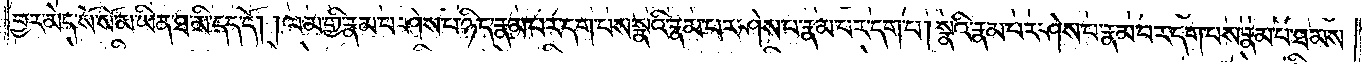བྱར་མེད་སོ་སོ་མ་ཡིན་ཐ་མི་དད་དོ། །ལམ་གྱི་རྣམ་པ་ཤེས་པ་ཉིད་རྣམ་པར་དག་པས་སྣའི་རྣམ་པར་ཤེས་པ་རྣམ་པར་དག་པ། སྣའི་རྣམ་པར་ཤེས་པ་རྣམ་པར་དག་པས་རྣམ་པ་ཐམས་
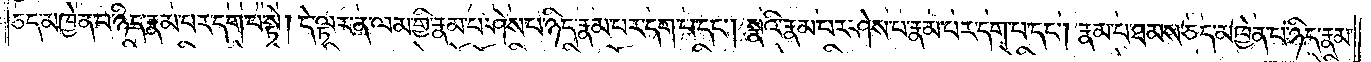ཅད་མཁྱེན་པ་ཉིད་རྣམ་པར་དག་པ་སྟེ། དེ་ལྟར་ན་ལམ་གྱི་རྣམ་པ་ཤེས་པ་ཉིད་རྣམ་པར་དག་པ་དང༌། སྣའི་རྣམ་པར་ཤེས་པ་རྣམ་པར་དག་པ་དང༌། རྣམ་པ་ཐམས་ཅད་མཁྱེན་པ་ཉིད་རྣམ་
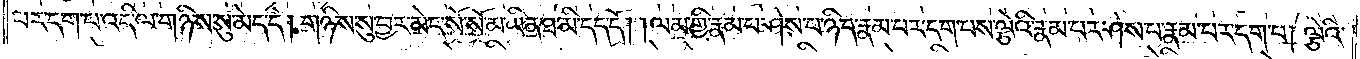པར་དག་པ་འདི་ལ་གཉིས་སུ་མེད་དེ། གཉིས་སུ་བྱར་མེད་སོ་སོ་མ་ཡིན་ཐ་མི་དད་དོ། །ལམ་གྱི་རྣམ་པ་ཤེས་པ་ཉིད་རྣམ་པར་དག་པས་ལྕེའི་རྣམ་པར་ཤེས་པ་རྣམ་པར་དག་པ། ལྕེའི་
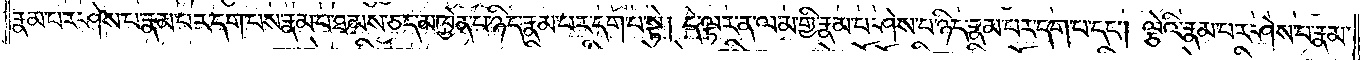རྣམ་པར་ཤེས་པ་རྣམ་པར་དག་པས་རྣམ་པ་ཐམས་ཅད་མཁྱེན་པ་ཉིད་རྣམ་པར་དག་པ་སྟེ། དེ་ལྟར་ན་ལམ་གྱི་རྣམ་པ་ཤེས་པ་ཉིད་རྣམ་པར་དག་པ་དང༌། ལྕེའི་རྣམ་པར་ཤེས་པ་རྣམ་
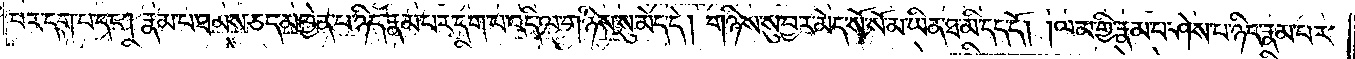པར་དག་པ་དང༌། རྣམ་པ་ཐམས་ཅད་མཁྱེན་པ་ཉིད་རྣམ་པར་དག་པ་འདི་ལ་གཉིས་སུ་མེད་དེ། གཉིས་སུ་བྱར་མེད་སོ་སོ་མ་ཡིན་ཐ་མི་དད་དོ། །ལམ་གྱི་རྣམ་པ་ཤེས་པ་ཉིད་རྣམ་པར་
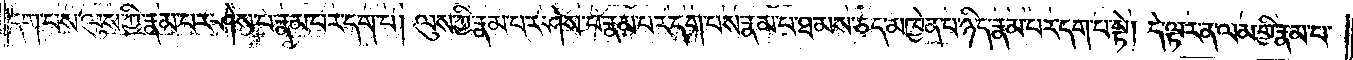དག་པས་ལུས་ཀྱི་རྣམ་པར་ཤེས་པ་རྣམ་པར་དག་པ། ལུས་ཀྱི་རྣམ་པར་ཤེས་པ་རྣམ་པར་དག་པས་རྣམ་པ་ཐམས་ཅད་མཁྱེན་པ་ཉིད་རྣམ་པར་དག་པ་སྟེ། དེ་ལྟར་ན་ལམ་གྱི་རྣམ་པ་
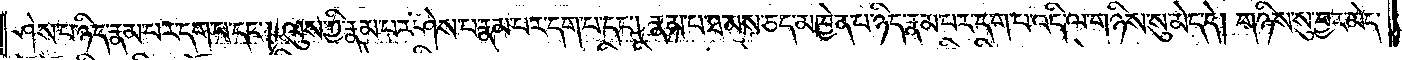ཤེས་པ་ཉིད་རྣམ་པར་དག་པ་དང༌། ལུས་ཀྱི་རྣམ་པར་ཤེས་པ་རྣམ་པར་དག་པ་དང༌། རྣམ་པ་ཐམས་ཅད་མཁྱེན་པ་ཉིད་རྣམ་པར་དག་པ་འདི་ལ་གཉིས་སུ་མེད་དེ། གཉིས་སུ་བྱར་མེད་
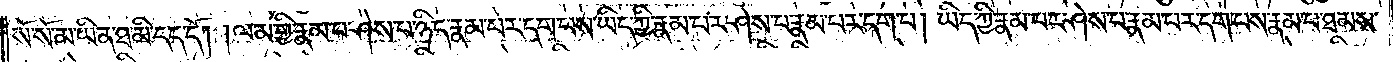སོ་སོ་མ་ཡིན་ཐ་མི་དད་དོ། །ལམ་གྱི་རྣམ་པ་ཤེས་པ་ཉིད་རྣམ་པར་དག་པས་ཡིད་ཀྱི་རྣམ་པར་ཤེས་པ་རྣམ་པར་དག་པ། ཡིད་ཀྱི་རྣམ་པར་ཤེས་པ་རྣམ་པར་དག་པས་རྣམ་པ་ཐམས་
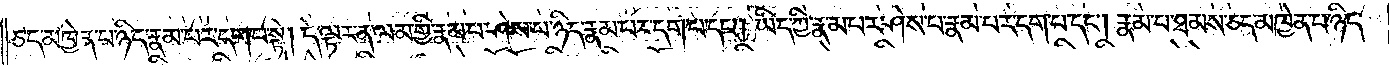ཅད་མཁྱེན་པ་ཉིད་རྣམ་པར་དག་པ་སྟེ། དེ་ལྟར་ན་ལམ་གྱི་རྣམ་པ་ཤེས་པ་ཉིད་རྣམ་པར་དག་པ་དང༌། ཡིད་ཀྱི་རྣམ་པར་ཤེས་པ་རྣམ་པར་དག་པ་དང༌། རྣམ་པ་ཐམས་ཅད་མཁྱེན་པ་ཉིད་
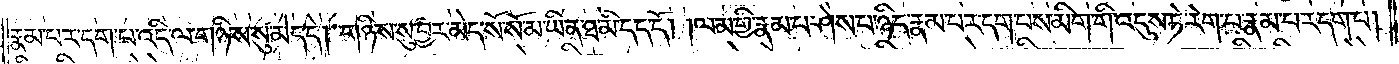རྣམ་པར་དག་པ་འདི་ལ་གཉིས་སུ་མེད་དེ། གཉིས་སུ་བྱར་མེད་སོ་སོ་མ་ཡིན་ཐ་མི་དད་དོ། །ལམ་གྱི་རྣམ་པ་ཤེས་པ་ཉིད་རྣམ་པར་དག་པས་མིག་གི་འདུས་ཏེ་རེག་པ་རྣམ་པར་དག་པ།
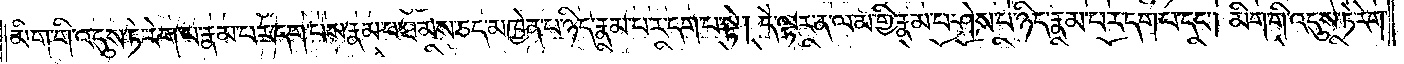མིག་གི་འདུས་ཏེ་རེག་པ་རྣམ་པར་དག་པས་རྣམ་པ་ཐམས་ཅད་མཁྱེན་པ་ཉིད་རྣམ་པར་དག་པ་སྟེ། དེ་ལྟར་ན་ལམ་གྱི་རྣམ་པ་ཤེས་པ་ཉིད་རྣམ་པར་དག་པ་དང༌། མིག་གི་འདུས་ཏེ་རེག་
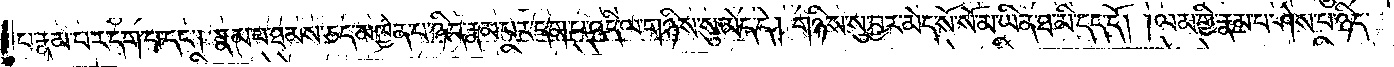པ་རྣམ་པར་དག་པ་དང༌། རྣམ་པ་ཐམས་ཅད་མཁྱེན་པ་ཉིད་རྣམ་པར་དག་པ་འདི་ལ་གཉིས་སུ་མེད་དེ། གཉིས་སུ་བྱར་མེད་སོ་སོ་མ་ཡིན་ཐ་མི་དད་དོ། །ལམ་གྱི་རྣམ་པ་ཤེས་པ་ཉིད་
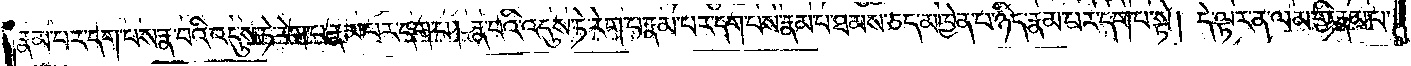རྣམ་པར་དག་པས་རྣ་བའི་འདུས་ཏེ་རེག་པ་རྣམ་པར་དག་པ། རྣ་བའི་འདུས་ཏེ་རེག་པ་རྣམ་པར་དག་པས་རྣམ་པ་ཐམས་ཅད་མཁྱེན་པ་ཉིད་རྣམ་པར་དག་པ་སྟེ། དེ་ལྟར་ན་ལམ་གྱི་རྣམ་པ་
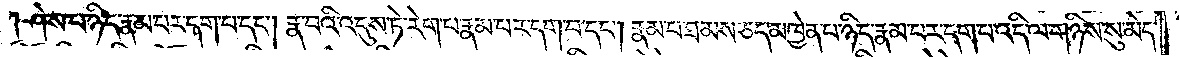ཤེས་པ་ཉིད་རྣམ་པར་དག་པ་དང༌། རྣ་བའི་འདུས་ཏེ་རེག་པ་རྣམ་པར་དག་པ་དང༌། རྣམ་པ་ཐམས་ཅད་མཁྱེན་པ་ཉིད་རྣམ་པར་དག་པ་འདི་ལ་གཉིས་སུ་མེད་
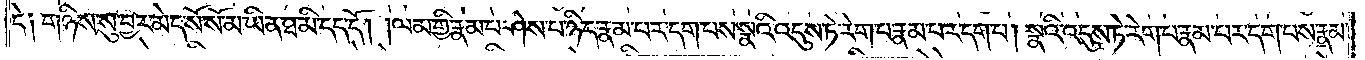དེ༑ གཉིས་སུ་བྱར་མེད་སོ་སོ་མ་ཡིན་ཐ་མི་དད་དོ། །ལམ་གྱི་རྣམ་པ་ཤེས་པ་ཉིད་རྣམ་པར་དག་པས་སྣའི་འདུས་ཏེ་རེག་པ་རྣམ་པར་དག་པ། སྣའི་འདུས་ཏེ་རེག་པ་རྣམ་པར་དག་པས་རྣམ་
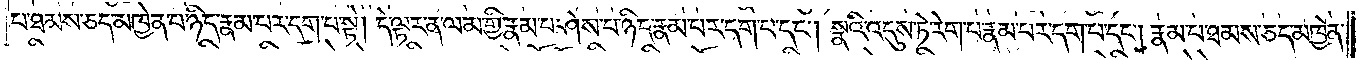པ་ཐམས་ཅད་མཁྱེན་པ་ཉིད་རྣམ་པར་དག་པ་སྟེ། དེ་ལྟར་ན་ལམ་གྱི་རྣམ་པ་ཤེས་པ་ཉིད་རྣམ་པར་དག་པ་དང༌། སྣའི་འདུས་ཏེ་རེག་པ་རྣམ་པར་དག་པ་དང༌། རྣམ་པ་ཐམས་ཅད་མཁྱེན་
